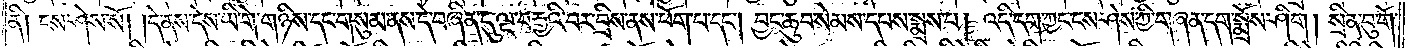ནི། ངས་ཤེས་སོ། །དེ་ནས་དེས་ཡི་གེ་གཉིས་དང་གསུམ་ནས་དེ་བཞིན་དུ་ལྔ་བརྒྱའི་བར་བྲིས་ནས་ཕོག་པ་དང༌། བྱང་ཆུབ་སེམས་དཔས་སྨྲས་པ། འདི་དག་ཀྱང་ངས་ཤེས་ཀྱི་གཞན་དག་སྨྲོས་ཤིག། སྲིན་བུ་གོ་
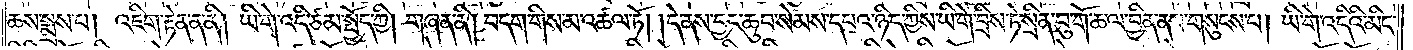ཆས་སྨྲས་པ། འཇིག་རྟེན་ན་ནི། ཡི་གེ་འདི་ཙམ་སྤྱོད་ཀྱི། གཞན་ནི། བདག་གིས་མ་འཚལ་ཏོ། །དེ་ནས་བྱང་ཆུབ་སེམས་དཔའ་ཉིད་ཀྱིས་ཡི་གེ་བྲིས་ཏེ་སྲིན་བུ་གོ་ཆ་ལ་བྱིན་ནས་གསུངས་པ། ཡི་གེ་འདིའི་མིང་
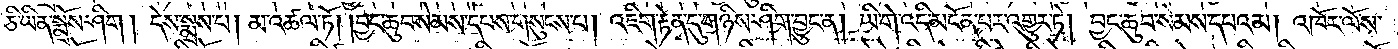ཅི་ཡིན་སྨྲོས་ཤིག། དེས་སྨྲས་པ། མ་འཚལ་ཏོ། །བྱང་ཆུབ་སེམས་དཔས་གསུངས་པ། འཇིག་རྟེན་དུ་གཉིས་ཤིག་བྱུང་ན། ཡི་གེ་འདི་མངོན་པར་འགྱུར་ཏེ། བྱང་ཆུབ་སེམས་དཔའམ། འཁོར་ལོས་
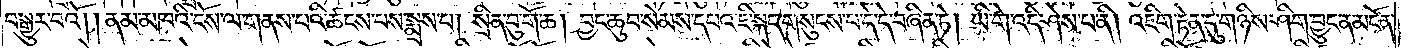བསྒྱུར་བའོ། །ནམ་མཁའི་ངོས་ལ་གནས་པའི་ཚངས་པས་སྨྲས་པ། སྲིན་བུ་གོ་ཆ། བྱང་ཆུབ་སེམས་དཔའ་ཇི་སྐད་གསུངས་པ་དེ་དེ་བཞིན་ཏེ། ཡི་གེ་འདི་ཤེས་པ་ནི། འཇིག་རྟེན་དུ་གཉིས་ཤིག་བྱུང་ན་མངོན་
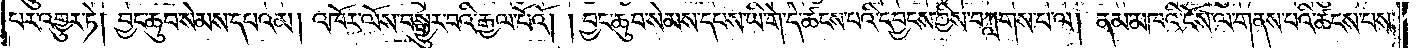པར་འགྱུར་ཏེ། བྱང་ཆུབ་སེམས་དཔའམ། འཁོར་ལོས་བསྒྱུར་བའི་རྒྱལ་པོའོ། །བྱང་ཆུབ་སེམས་དཔས་ཡི་གེ་དེ་ཚངས་པའི་དབྱངས་ཀྱིས་བཀླགས་པ་ལ། ནམ་མཁའི་ངོས་ལ་གནས་པའི་ཚངས་པས་
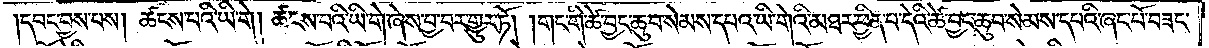དབང་བྱས་པས། ཚངས་པའི་ཡི་གེ། ཚངས་པའི་ཡི་གེ་ཞེས་བྱ་བར་གྱུར་ཏོ། །གང་གི་ཚེ་བྱང་ཆུབ་སེམས་དཔའ་ཡི་གེའི་མཐར་ཕྱིན་པ་དེའི་ཚེ་བྱང་ཆུབ་སེམས་དཔའི་ཞང་པོ་བཟང་
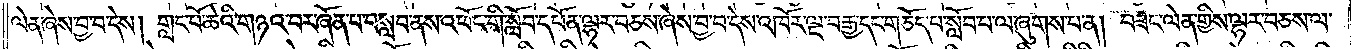ལེན་ཞེས་བྱ་བ་དེས། གླང་པོ་ཆེའི་གཉའ་བར་ཞོན་པ་བསླབ་ནས་འཕོང་གི་སློབ་དཔོན་ལྷར་བཅས་ཞེས་བྱ་བ་དེས་འཁོར་ལྔ་བརྒྱ་དང་གཅོད་པ་སློབ་པ་ལ་ཞུགས་པ་ན། བཟང་ལེན་གྱིས་ལྷར་བཅས་ལ་
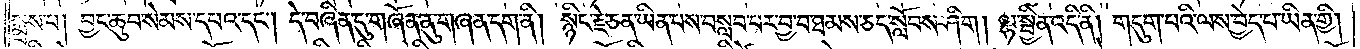སྨྲས་པ། བྱང་ཆུབ་སེམས་དཔའ་དང༌། དེ་བཞིན་དུ་གཞོན་ནུ་གཞན་དག་ནི། སྙིང་རྗེ་ཅན་ཡིན་པས་བསླབ་པར་བྱ་བ་ཐམས་ཅད་སློབས་ཤིག། ལྷ་སྦྱིན་འདི་ནི། གདུག་པའི་ལས་བྱེད་པ་ཡིན་གྱིས།
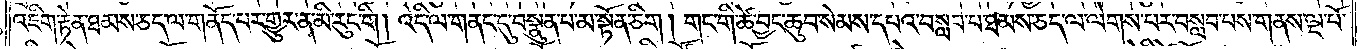འཇིག་རྟེན་ཐམས་ཅད་ལ་གནོད་པར་གྱུར་ན་མི་རུང་གི། འདི་ལ་གནང་དུ་བསྣུན་པ་མ་སྟོན་ཅིག། གང་གི་ཚེ་བྱང་ཆུབ་སེམས་དཔའ་བསླབ་པ་ཐམས་ཅད་ལ་ལེགས་པར་བསླབ་པས་གནས་ལྔ་པོ་
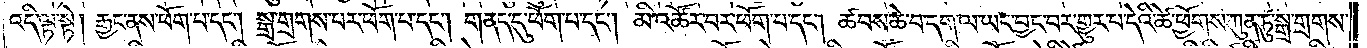འདི་ལྟ་སྟེ། རྒྱང་ནས་ཕོག་པ་དང༌། སྒྲ་གྲགས་པར་ཕོག་པ་དང༌། གནད་དུ་ཕོག་པ་དང༌། མི་འཚོར་བར་ཕོག་པ་དང༌། ཚབས་ཆེ་བ་དག་ལ་ཡང་བྱང་བར་གྱུར་པ་དེའི་ཕྱོགས་ཀུན་ཏུ་སྒྲ་གྲགས་
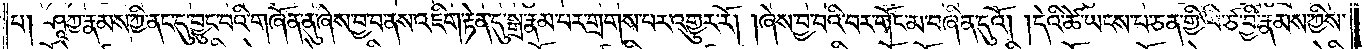པ། ཤཱཀྱ་རྣམས་ཀྱི་ནང་དུ་བྱུང་བའི་གཞོན་ནུ་ཞེས་བྱ་བ་ནས་འཇིག་རྟེན་དུ་སྒྲ་རྣམ་པར་གྲགས་པར་འགྱུར་རོ། །ཞེས་བྱ་བའི་བར་གོང་མ་བཞིན་དུའོ། །དེའི་ཚེ་ཡངས་པ་ཅན་གྱི་ལི་ཙ་བྱི་རྣམས་ཀྱིས་
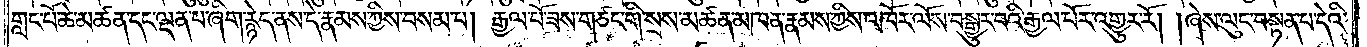གླང་པོ་ཆེ་མཚན་དང་ལྡན་པ་ཞིག་རྙེད་ནས་དེ་རྣམས་ཀྱིས་བསམ་པ། རྒྱལ་པོ་ཟས་གཙང་གི་སྲས་མཚན་མཁན་རྣམས་ཀྱིས་འཁོར་ལོས་བསྒྱུར་བའི་རྒྱལ་པོར་འགྱུར་རོ། །ཞེས་ལུང་བསྟན་པ་དེའི་
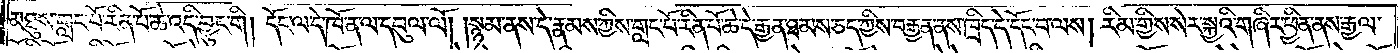མཐུས་གླང་པོ་རིན་པོ་ཆེ་འདི་བྱུང་གི། དོང་ལ་དེ་ཁོ་ན་ལ་དབུལ་ལོ། །སྙམ་ནས་དེ་རྣམས་ཀྱིས་གླང་པོ་རིན་པོ་ཆེ་དེ་རྒྱན་ཐམས་ཅད་ཀྱིས་བརྒྱན་ནས་ཁྲིད་དེ་དོང་བ་ལས། རིམ་གྱིས་སེར་སྐྱའི་གཞིར་ཕྱིན་ནས་རྒྱལ་
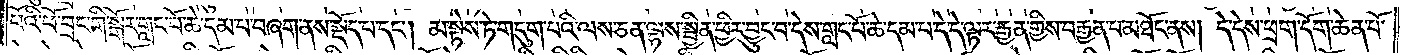པོའི་ཕོ་བྲང་གི་སྒོར་གླང་པོ་ཆེ་དམ་པ་བཞག་ནས་སྡོད་པ་དང༌། མ་སྟེས་ཏེ་གདུག་པའི་ལས་ཅན་ལྷས་སྦྱིན་ཕྱིར་བྱུང་བ་དེས་གླང་པོ་ཆེ་དམ་པ་དེ་དེ་ལྟར་རྒྱན་གྱིས་བརྒྱན་པ་མཐོང་ནས། དེ་དེས་ཕྲག་དོག་ཆེན་པོ་
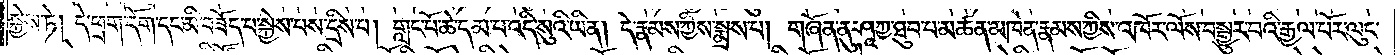སྐྱེས་ཏེ། དེ་ཕྲག་དོག་དང་མི་བཟོད་པ་སྐྱེས་པས་དྲིས་པ། གླང་པོ་ཆེ་དམ་པ་འདི་སུའི་ཡིན། དེ་རྣམས་ཀྱིས་སྨྲས་པ། གཞོན་ནུ་ཤཱཀྱ་ཐུབ་པ་མཚན་མཁན་རྣམས་ཀྱིས་འཁོར་ལོས་བསྒྱུར་བའི་རྒྱལ་པོར་ལུང་
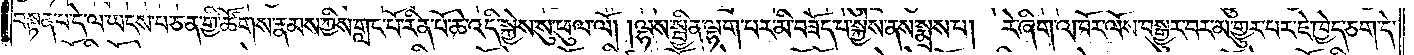བསྟན་པ་དེ་ལ་ཡངས་པ་ཅན་གྱི་ཚོགས་རྣམས་ཀྱིས་གླང་པོ་རིན་པོ་ཆེ་འདི་སྐྱེས་སུ་ཕུལ་ལོ། །ལྷས་སྦྱིན་ལྷག་པར་མི་བཟོད་པ་སྐྱེས་ནས་སྨྲས་པ། རེ་ཞིག་འཁོར་ལོས་བསྒྱུར་བར་མ་གྱུར་པར་ཇེ་ཁྱེད་ཅག་དེ་
